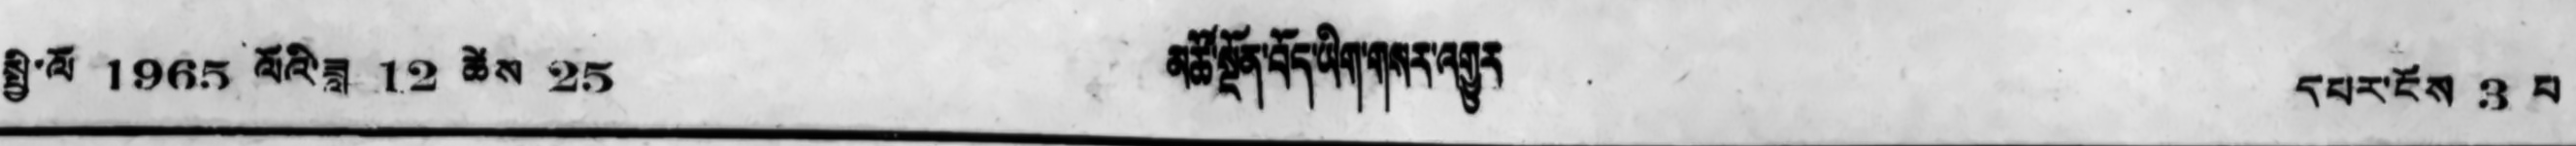སྤྱི་ལོ 1965 ལོའི་ཟླ 12 ཚེས 25 མཚོ་སྔོན་བོད་ཡིག་གསར་འགྱུར དཔར་ངོས 3 བ
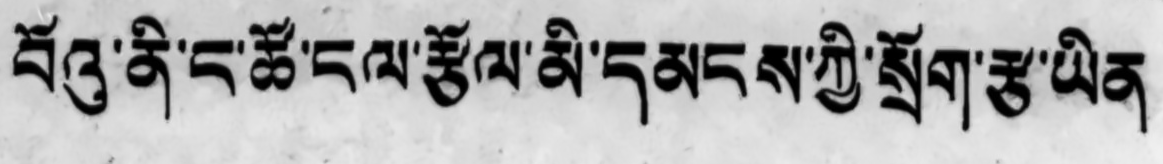བོའུ་ནི་ང་ཚོ་ངལ་རྩོལ་མི་དམངས་ཀྱི་སྲོག་རྩ་ཡིན
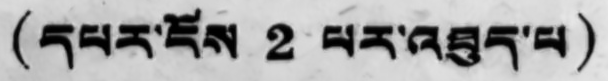(དཔར་ངོས 2 པར་འཐུད་པ)
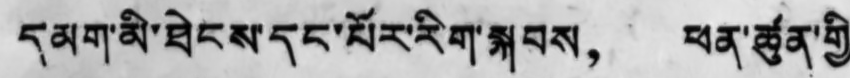དམག་མི་ཐེངས་དང་པོར་རིག་སྐབས， ཕན་ཚུན་གྱི་
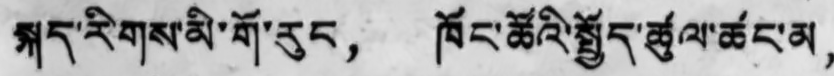སྐད་རིགས་མི་གོ་རུང， ཁོང་ཚོའི་སྤྱོད་ཚུལ་ཚང་མ，
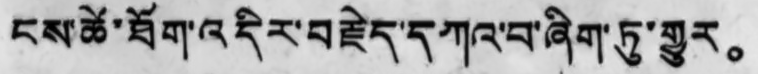ངས་ཚེ་ཐོག་འདིར་བརྗེད་དཀའ་བ་ཞིག་ཏུ་གྱུར。
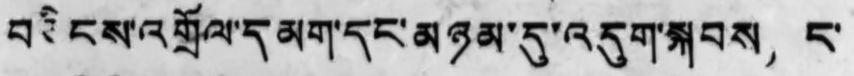བཅིངས་འགྲོལ་དམག་དང་མཉམ་དུ་འདུག་སྐབས， ང་
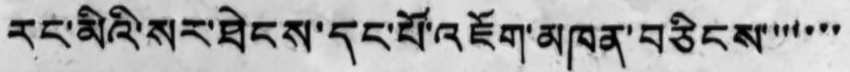རང་མིའི་སར་ཐེངས་དང་པོ་འཇོག་མཁན་བཅིངས་་་་་་་
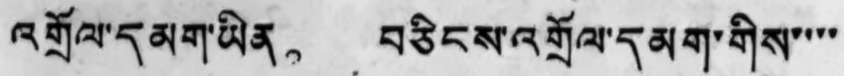འགྲོལ་དམག་ཡིན。 བཅིངས་འགྲོལ་དམག་གིས་་་་
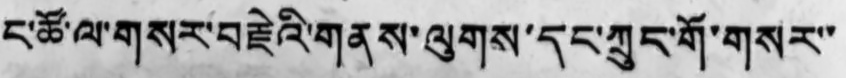ང་ཚོ་ལ་གསར་བརྗེའི་གནས་ལུགས་དང་ཀྲུང་གོ་གསར་་
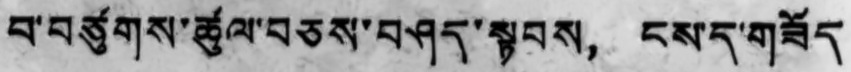བ་བཙུགས་ཚུལ་བཅས་བཤད་སྟབས， ངས་ད་གཟོད་
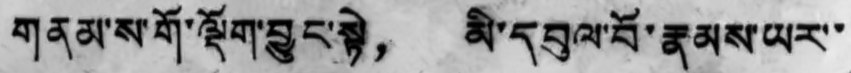གནམ་ས་གོ་ལྡོག་བྱུང་སྟེ， མི་དབུལ་བོ་རྣམས་ཡར་་
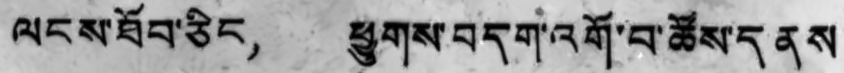ལངས་ཐོབ་ཅིང， ཕྱུགས་བདག་འགོ་བ་ཚོས་དནུས
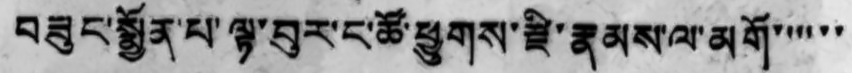བཟུང་སྨྱོན་པ་ལྟ་བུར་ང་ཚོ་ཕྱུགས་རྫི་རྣམས་ལ་མགོ་་་་་་
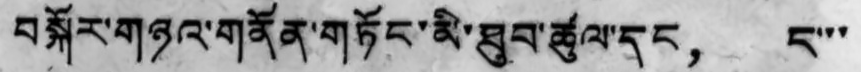བསྐོར་གཉའ་གནོན་གཏོང་མི་ཐུབ་ཚུལ་དང， ང་་་
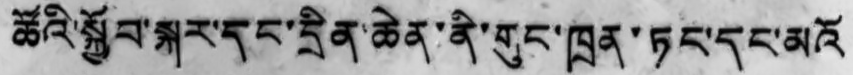ཚོའི་སྐྱོབ་སྐར་དང་དྲིན་ཆེན་ནི་གུང་ཁྲན་ཏང་དང་མའོ་
